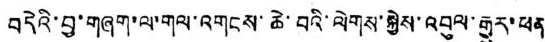བདེའི་བྱ་གཞག་ལ་གལ་འགངས་ཆེ་བའི་ལེགས་སྐྱེས་འབུལ་རྒྱུར་ཕན
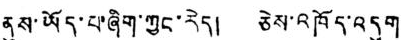ནུས་ཡོད་པ་ཞིག་ཀྱང་རེད། ཅེས་འཁོད་འདུག
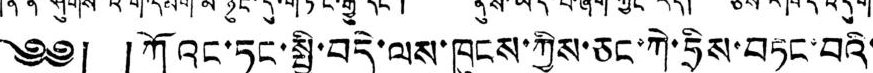༄༅། །ཀོའང་ཏུང་སྤྱི་བདེ་ལས་ཁུངས་ཀྱིས་ཅང་ཀེ་ཧྲིས་བཏང་བའི་
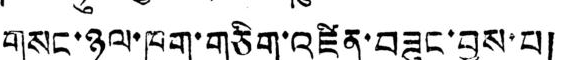གསང་ཉུལ་ཁག་གཅིག་འཛིན་བཟུང་བྱས་པ།
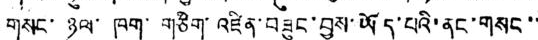གསང་ ཉུལ་ ཁག་ གཅིག་ འཛིན་བཟུང་བྱས་ཡོད་པའི་ནང་གསང་་
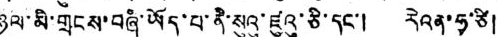ཉུལ་མི་གྲངས་བཞི་ཡོད་པ་ནི་སུའུ་ཛུའུ་ཅི་དང་། རེའན་ཧྭ་ཙི།
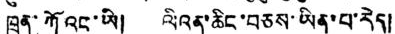ཁྲན་ཀོའང་ཡི། ལིའན་ཆིང་བཅས་ཡིན་པ་རེད།
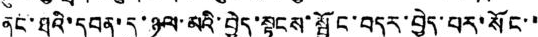ནང་ཐའི་དབན་དུ་ཉུལ་མའི་བྱེད་སྟངས་སྦྱོང་བདར་བྱེད་པར་སོང་་
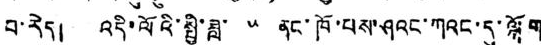བ་རེད། འདི་ལོའི་སྤྱི་ཟླ་ ༥ ནང་ཁོ་པས་ཤའང་ཀའང་དུ་ལྐོག
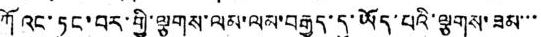ཀོའང་ཏུང་བར་གྱི་ལྕགས་ལམ་ལམ་བརྒྱུད་དུ་ཡོད་པའི་ལྕགས་ཟམ་་་
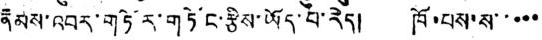རྣམས་འབར་གཏོར་གཏོང་རྩིས་ཡོད་པ་རེད། ཁོ་པས་ས་་་་་
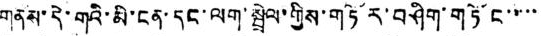གནས་དེ་གའི་མི་ངན་དང་ལག་སྦྲེལ་གྱིས་གཏོར་བཤིག་གཏོང་་་་་
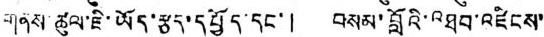གནས་ཚུལ་ཇི་ཡོད་རྩད་དཔྱོད་དང་། བསམ་བློའི་འཐབ་འཛིངས་
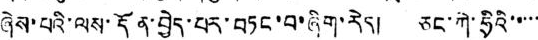ཞེས་པའི་ལས་དོན་བྱེད་པར་བཏང་བ་ཞིག་རེད། ཅང་ཀེ་ཧྲིའི་་་་་
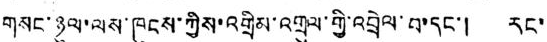གསང་ཉུལ་ལས་ཁུང་ཀྱིས་འགྲིམ་འགྲུལ་གྱི་འབྲེལ་པ་དང་། རང་
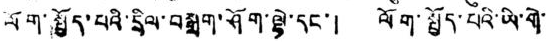ལོག་སྤྱོད་པའི་དྲིལ་བསྒྲག་ཤོག་ལྟེ་དང་། ལོག་སྤྱོད་པའི་ཡི་གེ་
